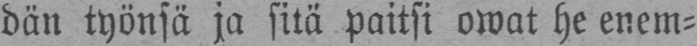dän työnsä ja sitä paitsi owat he enem-
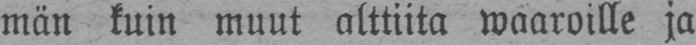män kuin muut alttiita waaroille ja
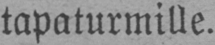tapaturmille.
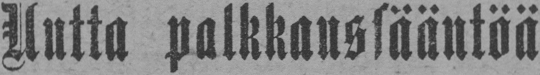Uutta palkkaussääntöä
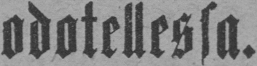odotellessa.
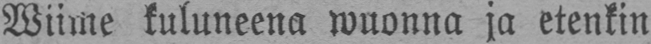Wiime kuluneena wuonna ja etenkin
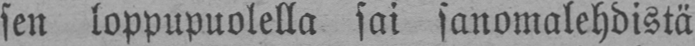sen loppupuolella sai sanomalehdistä
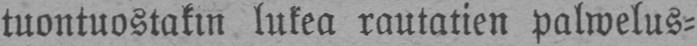tuontuostakin lukea rautatien palwelus-
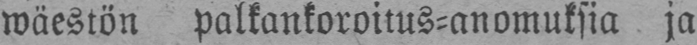wäestön palkankoroitus-anomuksia ja
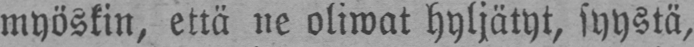myöskin, että ne oliwat hyljätyt, syystä,
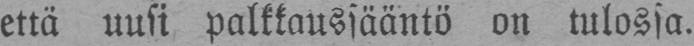että uusi palkkaussääntö on tulossa.
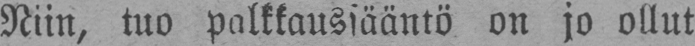Niin, tuo palkkaussääntö on jo ollut
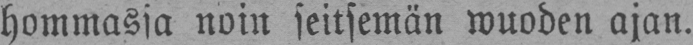hommassa noin seitsemän wuoden ajan.
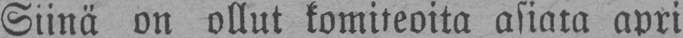Siinä on ollut komiteoita asiata apri
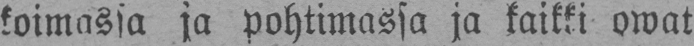koimassa ja pohtimassa ja kaikki owat
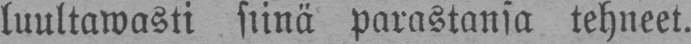luultawasti siinä parastansa tehneet.
